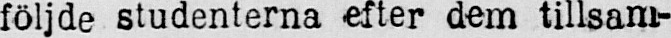följde studenterna efter dem tillsam-
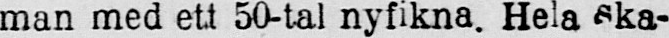man med ett 50-tal nyfikna. Hela ska-
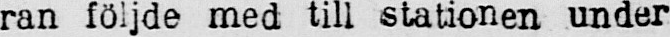ran följde med till stationen under
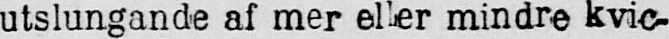utslungande af mer eller mindre kvic-
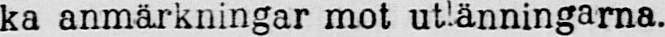ka anmärkningar mot utlänningarna.
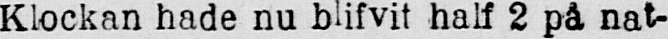Klockan hade nu blifvit half 2 på nat-
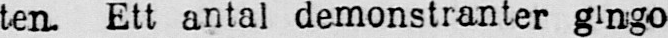ten. Ett antal demonstranter gingo
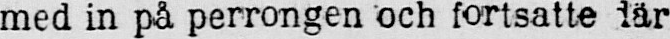med in på perrongen och fortsatte där
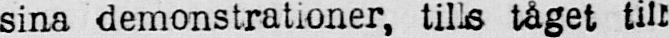sina demonstrationer, tills tåget till
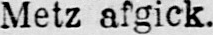Metz afgick.
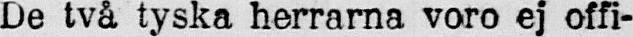De två tyska herrarna voro ej offi-
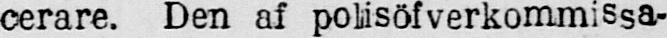cerare. Den af polisöfverkommissa-
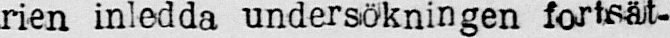rien inledda undersökningen fortsät-
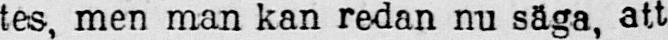tes, men man kan redan nu såga, att
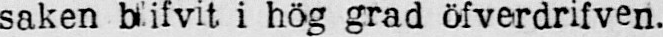saken blifvit i hög grad öfverdrifven.
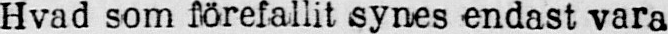Hvad som förefallit synes endast vara
